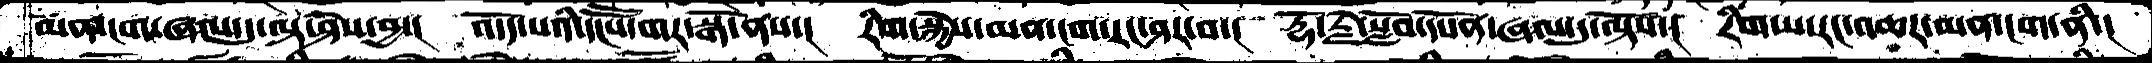མན་ངག་ཞལ་དུ་ལྟ་ཤེས་བྱ་།  འདོད་པའི་དངཽས་གར་སྒོ་ནས་།  རིག་སྐྱེས་མན་ངག་རང་ཤར་བ་།  རྡོ་རྗེ་སློབ་དཔོན་ཞལ་དུ་ལྟོས་།  རིག་པ་རང་འཆར་མན་ངག་ནི་།
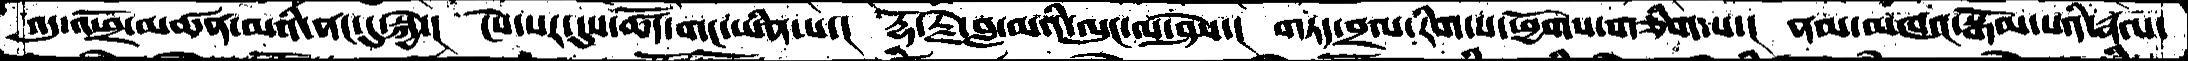འདུ་འཕྲོ་མཚན་མའི་ནང་དུ་སྐྱེ་།  ངེས་པར་དུས་ཚོད་གང་ཡིན་པ་།  རྡོ་རྗེ་བླ་མའི་ལུང་ལ་ཤེས་།  གཏད་བྲལ་རིག་པ་ཕྱོགས་གཅིག་པ་།  ནམ་མཁའ་སྒོམ་པའི་རྣལ་
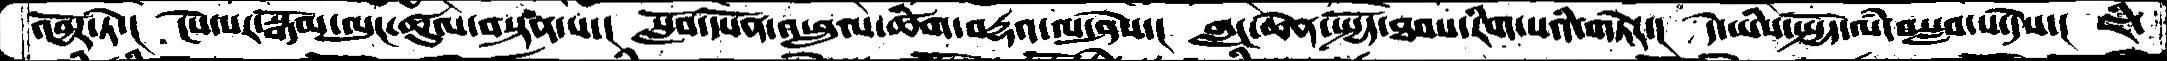འབྱོར་ཏེ་།  ངེས་པར་སྒོམ་ལུང་ཚུལ་བསྟན་པ་།  སློབ་དཔོན་འཕྲུལ་ཚིག་བརྡའ་ལ་ཤེས་།  གླང་ཆེན་སྤྱོད་ཐབས་རིག་པའི་གཏེར་།  དེ་ཡིས་སྤྱོད་ལཾ་བསླབ་པ་དེས་།  ཇི་
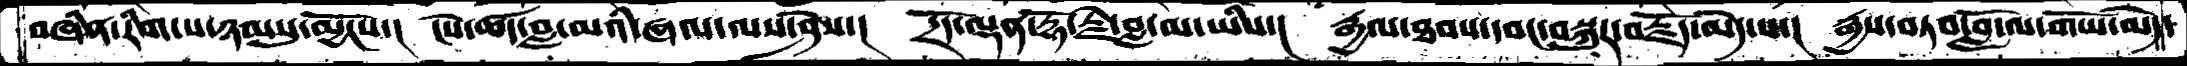བཞིན་རིག་པ་ཉམསུ་མྱོངས་།  ངེས་ཚད་བླ་མའི་ཞལ་ལས་ཤེས་།  དྲོད་ལྡན་རྡོ་རྗེ་བླ་མ་ཡིས་།  རྒྱལ་ཐབས་དབང་བསྐུར་བརྗོད་མེད་པ་།  རྒྱས་བཏབ་བློ་ལ་གཡོ་མེད་
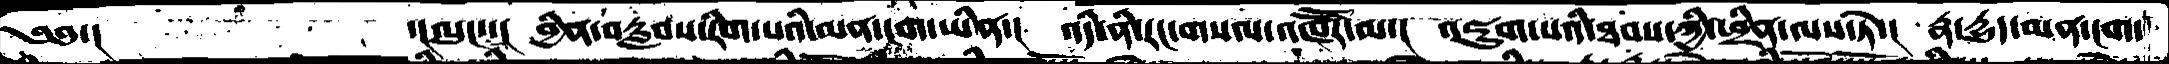༄༅་།             ་།ལུང་་།  བྱིན་བརླབས་རིག་པའི་མན་ངག་ཡིན་།  འདི་ནི་རང་གསལ་འཁཽར་མ་།  འཇུག་པའི་ཐབས་ཀྱི་ཕྲིན་ལས་ཏེ་།  རྣ་དྱུད་མན་ངག་
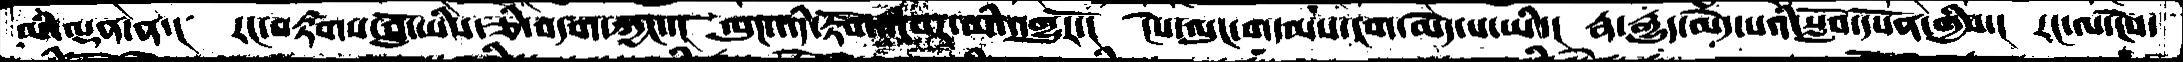མི་ལྡན་ན་།  རང་བརྟགས་བློ་་ཡིས་ཅི་བདག་ཀྱང་་།  ལུང་འདི་རྟོགས་པར་མི་འགྱུརོ་།  ངེས་ལུང་གདམས་ངག་མེད་པ་ཡི་།  རྣ་རྒྱུད་མེད་པའི་སློབ་དཔོན་གྱིས་།  རང་ལ་ངེས་
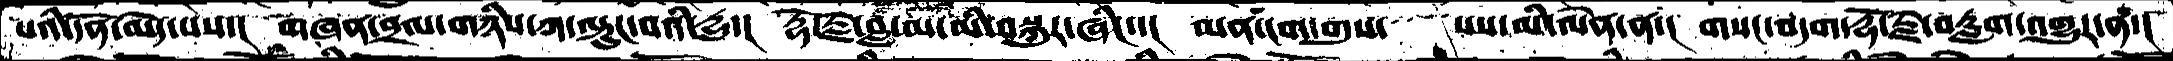པའི་དོན་མེད་པས་།  གཞན་བྲལ་གཉིས་ཀ་ལྟུང་བའི་དྱུ་།  རྡོ་རྗེ་བླ་མ་མི་བསྐུར་ཞིང་་།  མན་ངག་གུས་   པས་མི་ལེན་ན་།  གསང་བདག་རྡོ་རྗེ་བརླག་འགྱུར་ན་།
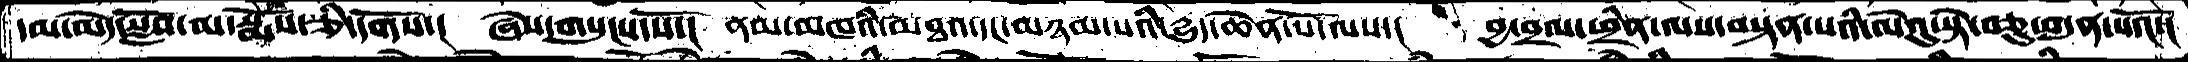དམ་མེད་སློབ་མ་སྨོས་ཅི་དགོས་།  ཞེས་གསུངས་སོ་།  ནམ་མཁའི་མཐའ་དང་མཉམ་པའི་དྱུད་ཆེན་པོ་ལས་།    བྱ་བྲལ་ཕྲིན་ལས་བསྟན་པའི་ལེའུ་སྟེ་བཅུ་བདུན་པའོ་།
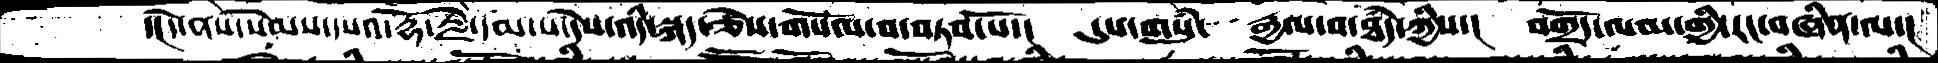་།དེ་ནས་སེམས་དཔའ་རྡོ་རྗེ་དམ་པ་དེས་འདི་སྐད་ཅེས་གསོལ་བ་བཏབ་པོ་།  དུས་གསུམ་  རྒྱལ་བ་ཐཾད་ཀྱིས་།  བགྲོད་ལམ་གྱི་རང་བཞིན་ལ་།
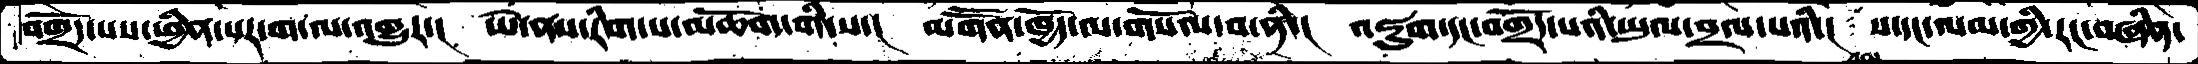བགྲོད་པར་ཕྱིན་པར་ག་ལ་འགྱུར་།  ཡེ་ནས་རིག་པ་མཆོག་གི་ས་།  མགཽན་ཁྱོད་ལ་གསོལ་བ་ནི་།  འཇུག་དང་བགྲོད་པའི་ཡུལ་བྲལ་པའི་།  ས་དང་ལམ་གྱི་རང་བཞིན་
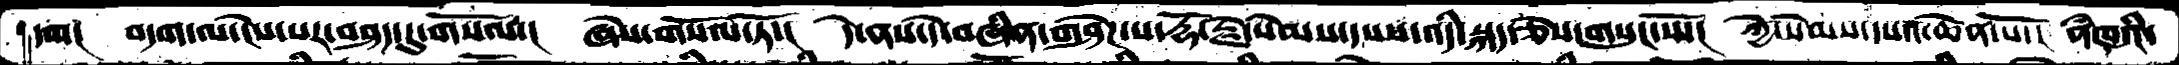དག།  བདག་ལ་ངེས་པར་བཤད་དུ་གསོལ་།  ཞེས་གསོལ་ཏོ་།  དེ་ནས་དེ་བཞིན་གཤེཌ་པ་རྡོ་རྗེ་སེམས་དཔས་འདི་སྐད་ཅེས་གསུངས་སོ་།  ཀྱེ་སེམས་དཔའ་ཆེན་པོ་།  ནཾཁའི་
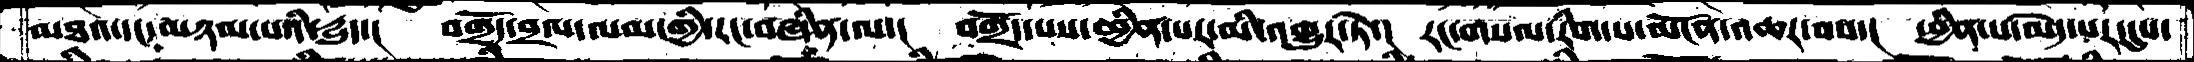མཐའ་དང་མཉམ་པའི་དྱུད་།  བགྲོད་བྲལ་ལམ་གྱི་རང་བཞིན་ལ་།  བགྲོད་པས་ཕྱིན་པར་མི་འགྱུར་ཏེ་།  རང་གསལ་རིག་པ་མངོན་འཆར་བས་།  ཕྱིན་པ་མེད་པར་དུས་
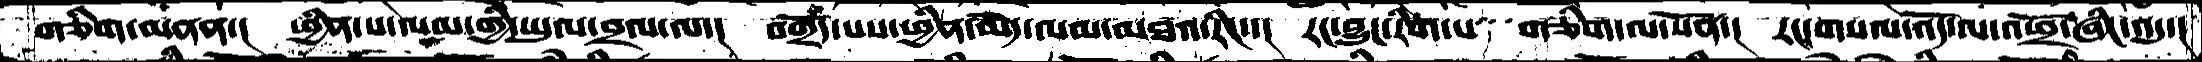གཅིག་མནན་།  ཕྱིན་པ་ལམ་གྱི་ཡུལ་བྲལ་ལ་།  བགྲོད་པས་ཕྱིན་མེད་ལམ་མཐའ་རིང་་།  རང་བྱུང་རིག་པ་  གཅིག་ལ་སོན་།  རང་གསལ་འོད་ལ་འཕྲོ་ཞིང་འདུ་།
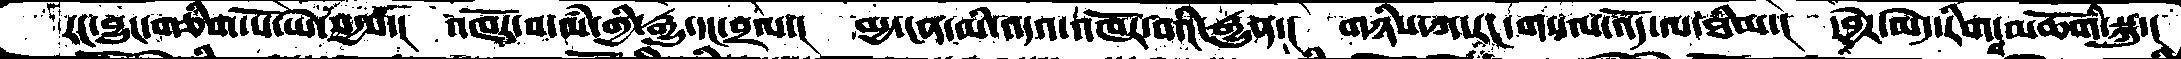རང་བྱུང་གཅིག་པོ་ཡེ་སདྱས་། འཁོར་བ་ལཾ་གྱི་རྒྱུ་དང་བྲལ་། མྱ་ངན་མི་འདའ་འཁོར་བའི་རྒྱུན་། གཉིས་ཀ་རང་གསལ་འོད་ལ་ཐིམ་། དབྱེར་མེད་རིག་པ་མཆོགི་སྐུ་།
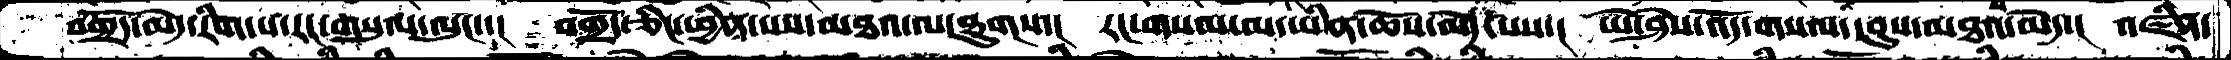བགྲོད་མེད་རིག་པ་རང་གསུམ་ལུང་།  བགྲོད་ཅིང་ཕྱིན་པས་མཐའ་ལ་ཐུགས་།  རང་གསལ་མ་ཡིན་ཆོས་མེད་པས་།  ཡེ་ཤེས་འོད་གསལ་དབུས་མཐའ་མེད་།  འཛིན་
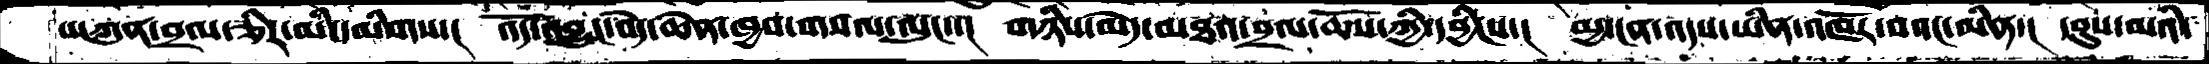པ་ཀུན་བྲལ་ཅིར་མི་དམིགས་།  འོད་འབྱུང་བདེ་ཆེན་ཁྱབ་གསལ་ལུང་།  གཉིས་མེད་མཐའ་བྲལ་ཆོས་ཀྱི་དབྱིངས་།  མྱ་ངན་འདས་ཡིན་འཁོར་བའང་མིན་།  དབུས་མའི་
